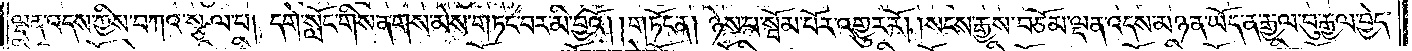ལྡན་འདས་ཀྱིས་བཀའ་སྩལ་པ། དགེ་སློང་གིས་ནགས་མེས་གཏང་བར་མི་བྱའོ། །གཏོང་ན། ཉེས་པ་སྦོམ་པོར་འགྱུར་རོ། །སངས་རྒྱས་བཅོམ་ལྡན་འདས་མཉན་ཡོད་ན་རྒྱལ་བུ་རྒྱལ་བྱེད་
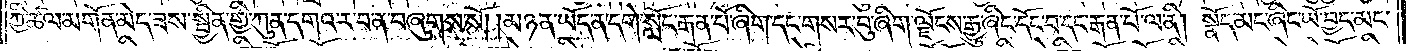ཀྱི་ཚལ་མགོན་མེད་ཟས་སྦྱིན་གྱི་ཀུན་དགའ་ར་བ་ན་བཞུགས་སོ། །མཉན་ཡོད་ན་དགེ་སློང་རྒན་པོ་ཞིག་དང་གསར་བུ་ཞིག་ལྗོངས་རྒྱུ་ཞིང་དོང་བ་དང་རྒན་པོ་ལ་ནི། སྣོད་མང་ཞིང་ཡོ་བྱད་མང་
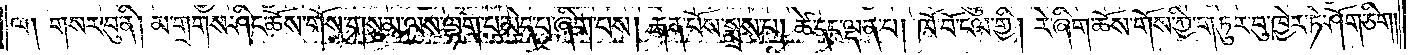ལ། གསར་བུ་ནི། མ་གྲགས་ཤིང་ཆོས་གོས་གསུམ་ལས་ལྷག་པ་མེད་པ་ཞིག་པས། རྒན་པོས་སྨྲས་པ། ཚེ་དང་ལྡན་པ། ཁོ་བོ་ངལ་གྱི། རེ་ཞིག་ཆོས་གོས་ཀྱི་གཏུར་བུ་ཁྱེར་ཏེ་ཤོག་ཅིག།
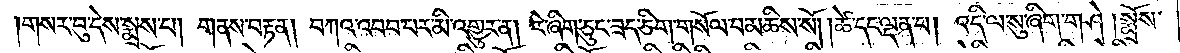གསར་བུ་དེས་སྨྲས་པ། གནས་བརྟན། བཀའ་འབབ་པར་མི་འགྱུར་ན། རེ་ཞིག་ཅུང་ཟད་ཅིག་གསོལ་བ་མཆིས་སོ། །ཚེ་དང་ལྡན་པ། འདི་ལ་སུ་ཞིག་གཤེ །སྨྲོས་
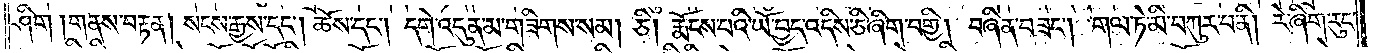ཤིག །གནས་བརྟན། སངས་རྒྱས་དང༌། ཆོས་དང༌། དགེ་འདུན་མ་གཟིགས་སམ། ཅི། རྨོངས་པའི་ཡོ་བྱད་འདིས་ཅི་ཞིག་བགྱི། བཞིན་བཟང༌། གལ་ཏེ་མི་བཀུར་བ་ནི། རེ་ཞིག་རུང་
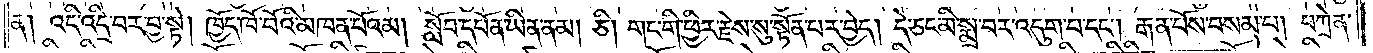ན། འདི་འདྲི་བར་བྱ་སྟེ། ཁྱོད་ཁོ་བོའི་མཁན་པོའམ། སློབ་དཔོན་ཡིན་ནམ། ཅི། གང་གི་ཕྱིར་རྗེས་སུ་སྟོན་པར་བྱེད། དེ་ཅང་མི་སྨྲ་བར་འདུག་པ་དང༌། རྒན་པོས་བསམ་པ། བཀྲེན་
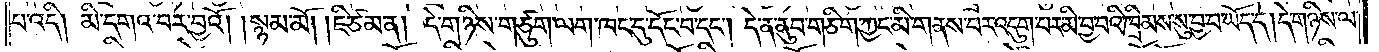པ་འདི། མི་དགའ་བར་བྱའོ། །སྙམ་མོ། །ཇི་ཙམ་ན། དེ་གཉིས་གཙུག་ལག་ཁང་དུ་དོང་བ་དང༌། དེ་ན་ནུབ་གཅིག་ཀྱང་མི་གནས་པར་འདུག་པར་མི་བྱ་བའི་ཁྲིམས་སུ་བྱ་བ་ཡོད་དེ། དེ་གཉིས་ལ་
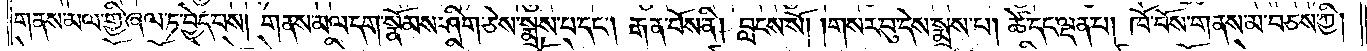གནས་མལ་གྱི་ཞལ་ཏ་བྱེད་པས། གནས་མལ་དག་སྣོམས་ཤིག་ཅེས་སྨྲས་པ་དང༌། རྒན་པོས་ནི། བླངས་སོ། །གསར་བུ་དེས་སྨྲས་པ། ཚེ་དང་ལྡན་པ། ཁོ་བོས་གནས་མ་བཅས་ཀྱི།
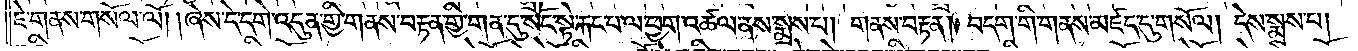ཇེ་གནས་གསོལ་ལོ། །ཞེས་དེ་དགེ་འདུན་གྱི་གནས་བརྟན་གྱི་གན་དུ་སོང་སྟེ་རྐང་པ་ལ་ཕྱག་འཚལ་ནས་སྨྲས་པ། གནས་བརྟན། བདག་གི་གནས་མཛད་དུ་གསོལ། དེས་སྨྲས་པ།
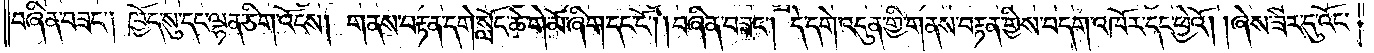བཞིན་བཟང༌། ཁྱོད་སུ་དང་ལྷན་ཅིག་འོངས། གནས་བརྟན་དགེ་སློང་ཆེ་གེ་མོ་ཞིག་དང་ངོ༌། །བཞིན་བཟང༌། དེ་དགེ་འདུན་གྱི་གནས་བརྟན་གྱིས་བདག་འཁོར་དང་ཕྱེའོ། །ཞེས་ཟེར་དུ་འོང་
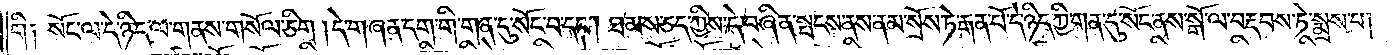གི༑ སོང་ལ་དེ་ཉིད་ལ་གནས་གསོལ་ཅིག །དེ་གཞན་དག་གི་གན་དུ་སོང་བ་དང༌། ཐམས་ཅད་ཀྱིས་དེ་བཞིན་སྤངས་ནས་ནམ་སྲོས་ཏེ་རྒན་པོ་དེ་ཉིད་ཀྱི་གན་དུ་སོང་ནས་སྒོ་ལ་བརྡབས་ཏེ་སྨྲས་པ།
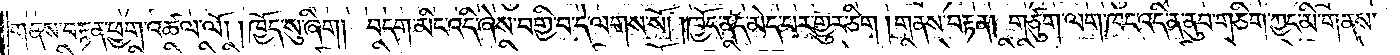གནས་བརྟན་ཕྱག་འཚལ་ལོ། །ཁྱོད་སུ་ཞིག། བདག་མིང་འདི་ཞེས་བགྱི་བ་དེ་ལགས་སོ། །ཁྱོད་ནད་མེད་པར་གྱུར་ཅིག །གནས་བརྟན། གཙུག་ལག་ཁང་འདི་ན་ནུབ་གཅིག་ཀྱང་མི་གནས་
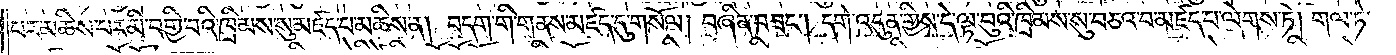པར་མཆིས་པར་མི་བགྱི་བའི་ཁྲིམས་སུ་མཛད་པ་མཆིས་ན། བདག་གི་གནས་མཛད་དུ་གསོལ། བཞིན་བཟང༌། དགེ་འདུན་གྱིས་དེ་ལྟ་བུའི་ཁྲིམས་སུ་བཅའ་བ་མཛད་པ་ལེགས་ཏེ། གལ་ཏེ་
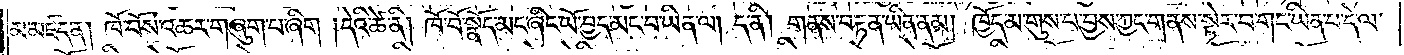མ་མཛད་ན། ཁོ་བོས་འཆར་གཞུག་པ་ཞིག །དེའི་ཚེ་ནི། ཁོ་བོ་སྣོད་མང་ཞིང་ཡོ་བྱད་མང་བ་ཡིན་ལ། ད་ནི། གནས་བརྟན་ཡིན་ནམ། ཁྱོད་མ་གུས་པ་བྱས་ཀྱང་གནས་སྟེར་བ་གང་ཡིན་པ་དེ་ལ་
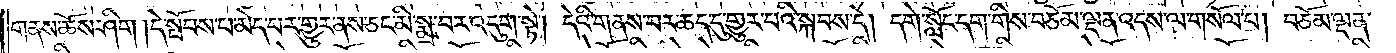གནས་ཆོས་ཤིག །དེ་སྤོབས་པ་མེད་པར་གྱུར་ནས་ཅང་མི་སྨྲ་བར་འདུག་སྟེ། དེའི་གནས་བར་ཆད་དུ་གྱུར་པའི་སྐབས་དེ། དགེ་སློང་དག་གིས་བཅོམ་ལྡན་འདས་ལ་གསོལ་པ། བཅོམ་ལྡན་
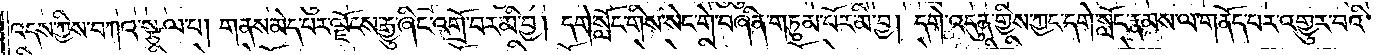འདས་ཀྱིས་བཀའ་སྩལ་པ། གནས་མེད་པར་ལྗོངས་རྒྱུ་ཞིང་འགྲོ་བར་མི་བྱ། དགེ་སློང་གིས་སེང་གེ་བཞིན་གཏུམ་པོར་མི་བྱ། དགེ་འདུན་གྱིས་ཀྱང་དགེ་སློང་རྣམས་ལ་གནོད་པར་འགྱུར་བའི་
